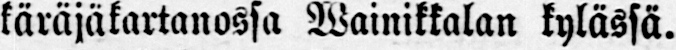käräjäkartanossa Wainikkalan kylässä.
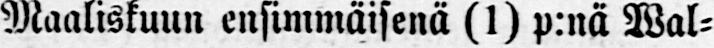Maaliskuun ensimmäisenä (1) p:nä Wal-
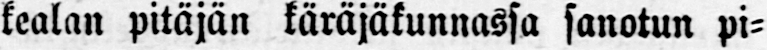kealan pitäjän käräjäkunnassa sanotun pi-
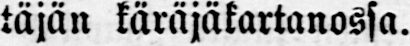täjän käräjäkartanossa.
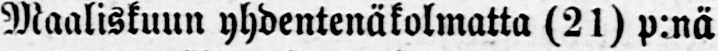Maaliskuun yhdentenäkolmatta (21) p:nä
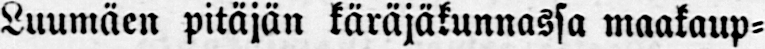Luumäen pitäjän käräjäkunnassa maakaup-
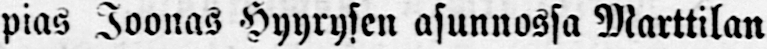pias Joonas Hyyrysen asunnossa Marttilan
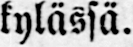kylässä.
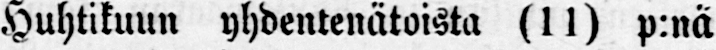Huhtikuun yhdentenätoista (11) p:nä
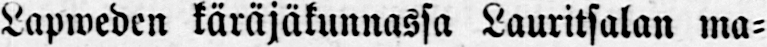Lapweden käräjäkunnassa Lauritsalan ma-
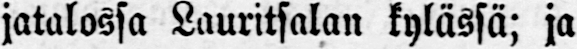jatalossa Lauritsalan kylässä; ja
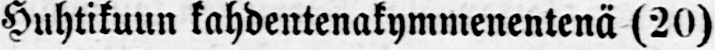Huhtikuun kahdentenakymmenentenä (20)
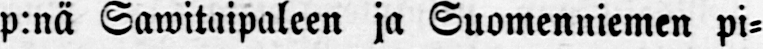p:nä Sawitaipaleen ja Suomenniemen pi-
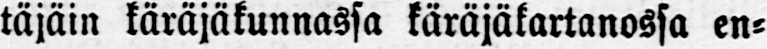täjäin käräjäkunnassa käräjäkartanossa en-
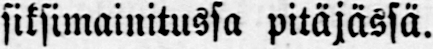siksimainitussa pitäjässä.
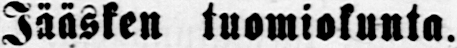Jääsken tuomiokunta.
